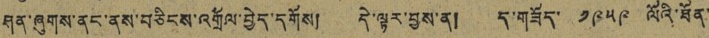ཤན་ཞུགས་ནང་ནས་བཅིངས་འགྲོལ་བྱེད་དགོས། དེ་ལྟར་བྱས་ན། ད་གཟོད་ ༡༩༥༩ ལོའི་ཐོན་
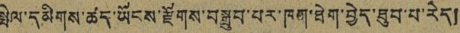སྤེལ་དམིགས་ཚད་ཡོངས་རྫོགས་བསྒྲུབ་པར་ཁག་ཐེག་བྱེད་ཐུབ་པ་རེད།
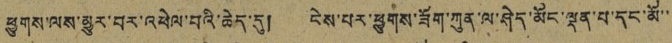ཕྱུགས་ལས་མྱུར་བར་འཕེལ་བའི་ཆེད་དུ། ངེས་པར་ཕྱུགས་ཟོག་ཀུན་ལ་ཤེད་མོང་ལྡན་པ་དང་མོ་་
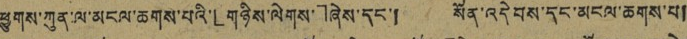ཕྱུགས་ཀུན་ལ་མངལ་ཆགས་པའི་「གཉིས་ལེགས་」ཞེས་དང་། སོན་འདེབས་དང་མངལ་ཆགས་པ།
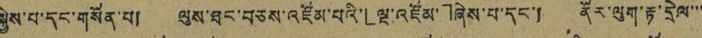སྐྱེས་པ་དང་གསོན་པ། ལུས་ཐང་བཅས་འཛོམ་པའི་「ལྔ་འཛོམ་」ཞེས་པ་དང་། ནོར་ལུག་རྟ་དྲེལ་་་
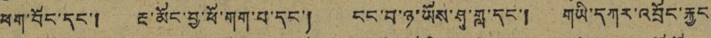ཕག་བོང་དང་། རྔ་མོང་བྱ་ཕོ་གག་པ་དང་། ངང་བ་ཉ་ཡོས་ཤྭ་གླ་དང་། གཡི་དཀར་འབྲོང་རྐྱང་
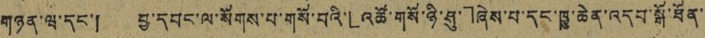གཉན་ཝ་དང་། བྱ་དབང་ལ་སོགས་པ་གསོ་བའི་「འཚོ་གསོ་ཉི་ཤུ་」ཞེས་པ་དང་ཁྱུ་ཆེན་འདབ་སྒོ་ཐོན་་
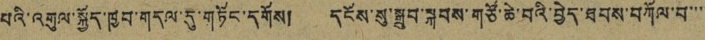པའི་འགུལ་སྐྱོད་ཁྱབ་གདལ་དུ་གཏོང་དགོས། དངོས་སུ་སྒྲུབ་སྐབས་གཙོ་ཆེ་བའི་བྱེད་ཐབས་བཀོལ་བ་་་་
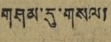གཤམ་དུ་གསལ།
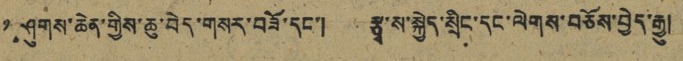༡. ཤུགས་ཆེན་གྱིས་ཆུ་བེད་གསར་བཟོ་དང་། རྩྭ་ས་སྐྱེད་སྲིང་དང་ལེགས་བཅོས་བྱེད་རྒྱུ།
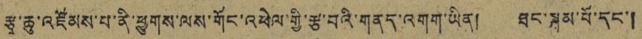རྩྭ་ཆུ་འཛོམས་པ་ནི་ཕྱུགས་ལས་གོང་འཕེལ་གྱི་རྩ་བའི་གནད་འགག་ཡིན། ཐང་སྐམ་པོ་དང་།
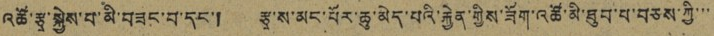འཚོ་རྩྭ་སྐྱེས་པ་མི་བཟང་བ་དང་། རྩྭ་ས་མང་པོར་ཆུ་མེད་པའི་རྐྱེན་གྱིས་ཟོག་འཚོ་མི་ཐུབ་པ་བཅས་ཀྱི་་་
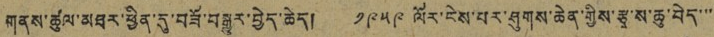གནས་ཚུལ་མཐར་ཕྱིན་དུ་བཟོ་བསྒྱུར་བྱེད་ཆེད། ༡༩༥༩ ལོར་ངེས་པར་ཤུགས་ཆེན་གྱིས་རྩྭ་ས་ཆུ་བེད་་་
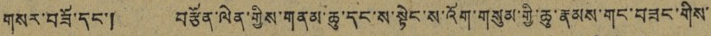གསར་བཟོ་དང་། བརྩོན་ལེན་གྱིས་གནམ་ཆུ་དང་ས་སྟེང་ས་འོག་གསུམ་གྱི་ཆུ་རྣམས་གང་བཟང་གིས་
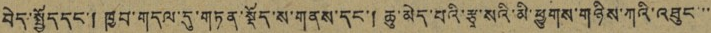བེད་སྤྱོད དང་། ཁྱབ་གདལ་དུ་གཏན་སྡོད་ས་གནས་དང་། ཆུ་མེད་པའི་རྩྭ་སའི་མི་ཕྱུགས་གཉིས་ཀའི་འཐུང་་་
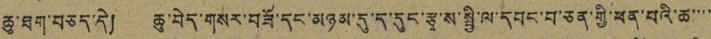ཆུ་ཐག་བཅད་དེ། ཆུ་བེད་གསར་བཟོ་དང་མཉམ་དུ་ད་དུང་རྩྭ་ས་སྤྱི་ལ་དབང་བ་ཅན་གྱི་ཕན་པའི་ཆ་་་་
